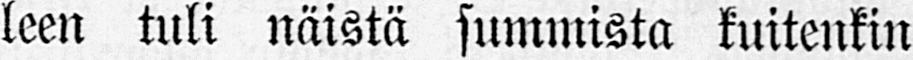leen tuli näistä summista kuitenkin
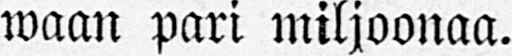waan pari miljoonaa.
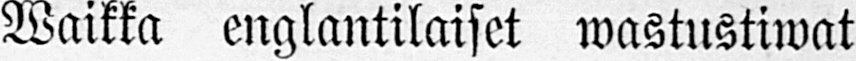Waikka englantilaiset wastustiwat
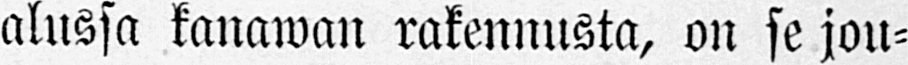alussa kanawan rakennusta, on se jou-
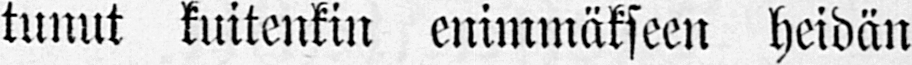tunut kuitenkin enimmäkseen heidän
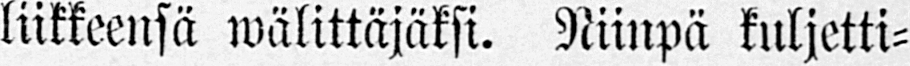liikkeensä wälittäjäksi. Niinpä kuljetti-
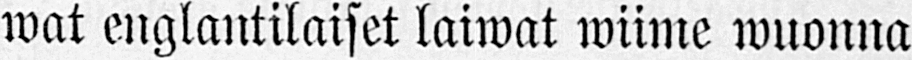wat englantilaiset laiwat wiime wuonna
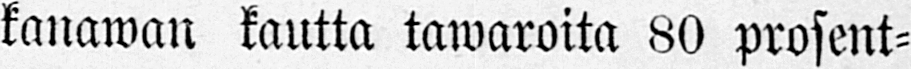kanawan kantta tawaroita 80 prosent-
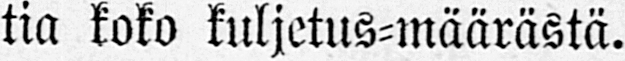tia koko kuljetus-määrästä.
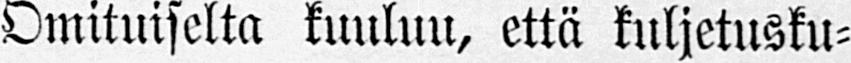Omituiselta kuuluu, että kuljetusku-
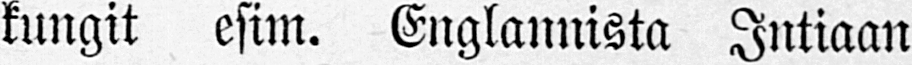kungit esim. Englannista Intiaan
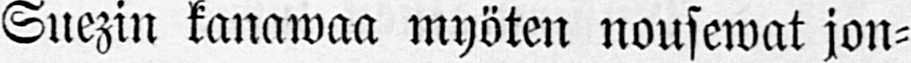Suezin kanawaa myöten nousewat jon-
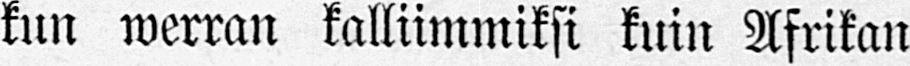kun werran kalliimmiksi kuin Afrikan
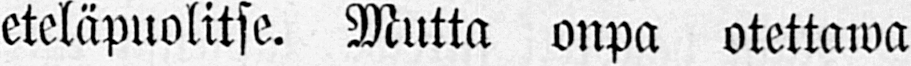eteläpuolitse. Mutta onpa otettawa
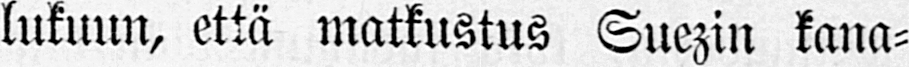lukuun, että matkustus Suezin kana-
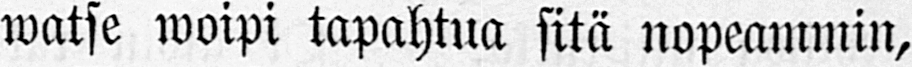watse woipi tapahtua sitä nopeammin,
